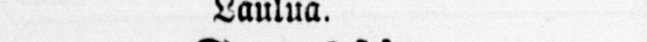Laulua.
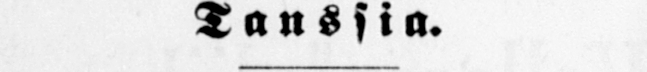Tanssia.
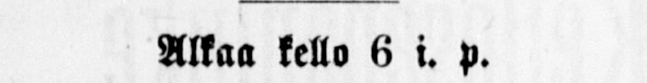Alkaa kello 6 i. p.
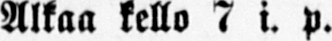Alkaa kello 7 i. p.
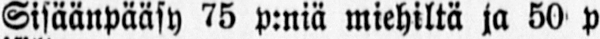Sisäänpääsy 75 p:niä miehiltä ja 50 p.
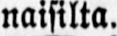naisilta.
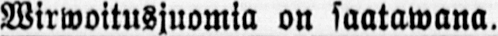Wirwoitusjuomia on saatawana.
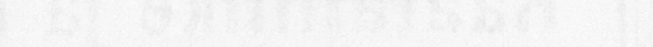teosta.
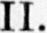II.
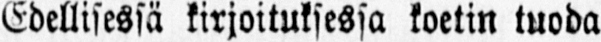Edellisessä kirjoituksessa koetin tuoda
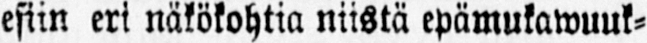esiin eri näkökohtia niistä epämukawuuk-
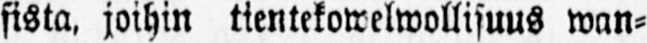sista, joihin tientekowelwollisuus wan-
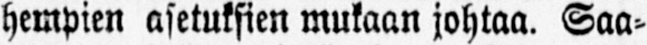hempien asetuksien mukaan johtaa. Saa-
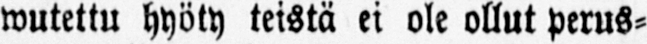wutettu hyöty teistä ei ole ollut perus-
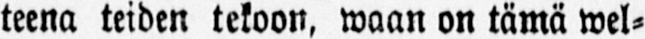teena teiden tekoon, waan on tämä wel-
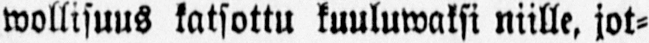wollisuus katsottu kuuluwaksi niille, jot-
